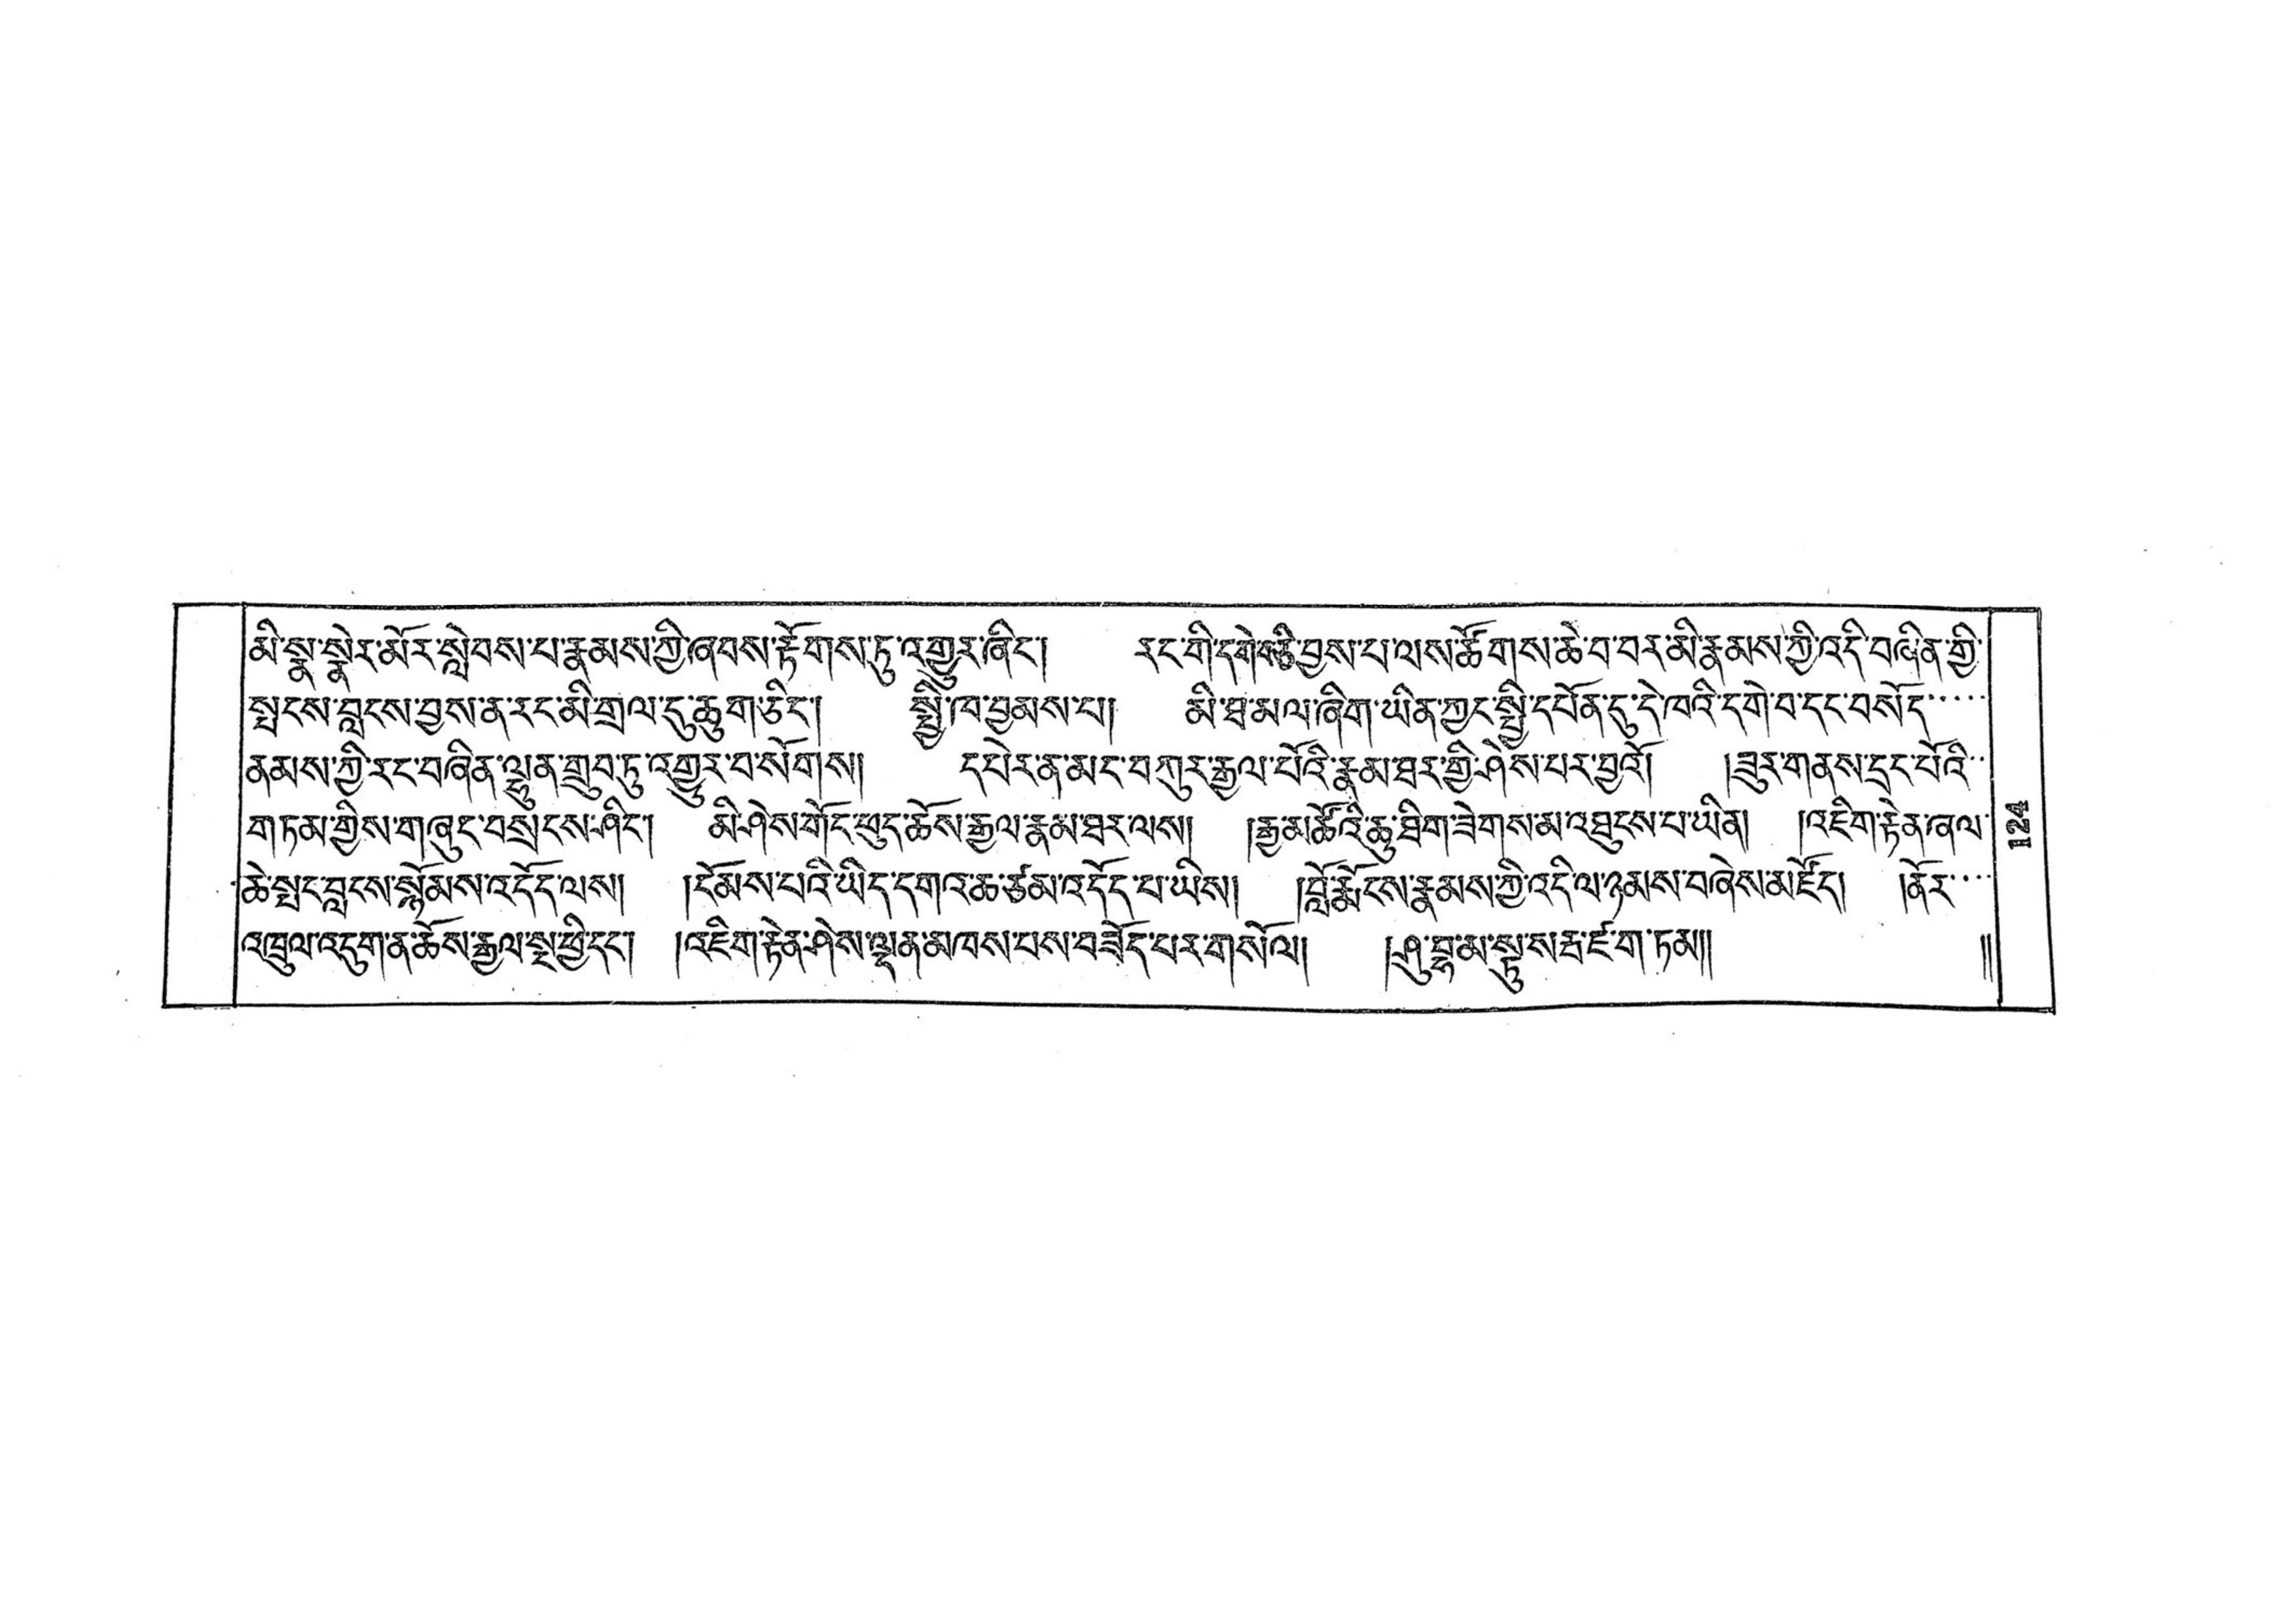མི་སྣ་སྣེར་མོར་སླེབས་པ་རྣམས་ཀྱི་ཞབས་རྟོགས་ཏུ་འགྱུར་ཞིང་། རང་གི་དགེ་བ་ཅི་བྱས་པ་ལས་ཚོགས་ཆེ་བ་བར་མི་རྣམས་ཀྱི་འདི་བཞིན་གྱི་
སྤངས་བླངས་བྱས་ན་རང་མི་གྲལ་དུ་ཆུག་ཅིང་། སྤྱི་ཁ་བྱམས་པ། མི་ཐ་མལ་ཞིག་ཡིན་ཀྱང་སྤྱི་དཔོན་དུ་དེ་ཁའི་དགེ་བ་དང་བསོད་་་་
ནམས་ཀྱི་རང་བཞིན་ལྷུན་གྲུབ་ཏུ་འགྱུར་བ་སོགས། དཔེར་ན་མང་བཀུར་རྒྱལ་པོའི་རྣམ་ཐར་གྱི་ཤེས་པར་བྱའོ། །ཟུར་གནས་དྲང་པོའི་་
གཏམ་གྱིས་གཞུང་བསྲངས་ཤིང་། མི་ཤེས་གོང་ཕུད་ཆོས་རྒྱལ་རྣམ་ཐར་ལས། །རྒྱ་མཚོའི་ཆུ་ཐིག་ཟེགས་མ་འཐུངས་པ་ཡིན། །འཇིག་རྟེན་ཞལ་
ཆེ་སྤང་བླངས་སྙོམས་འདོད་ལས། །ངོམས་པའི་ཡིད་དགའ་ཆ་ཙམ་འདོད་པ་ཡིས། །བློ་རྨོངས་རྣམས་ཀྱི་འདི་ལ་ཉམས་བཞེས་མཛོད། །ནོར་་་
འཁྲུལ་འདུག་ན་ཆོས་རྒྱལ་སྔ་ཕྱི་དང་། །འཇིག་རྟེན་ཤེས་ལྡན་མཁས་པས་བཟོད་པར་གསོལ། །ཤུ་བྷ་མ་སྟུ་སརྦ་ཛ་ག་ཏམ།།  །།
